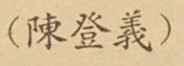（陳登義）
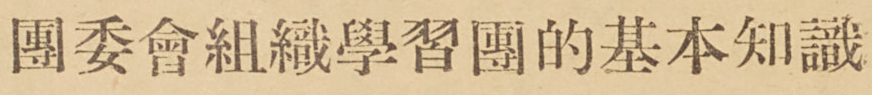團委會組織學習團的基本知識
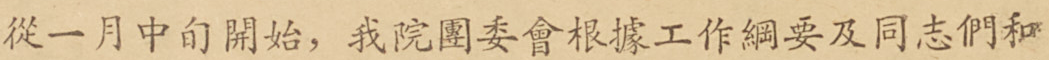從一月中旬開始，我院團委會根據工作綱要及同志們和
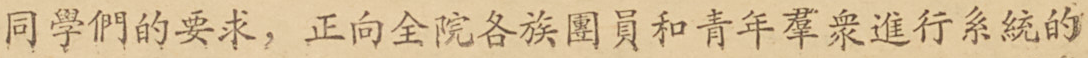同學們的要求，正向全院各族團員和青年羣衆進行系統的
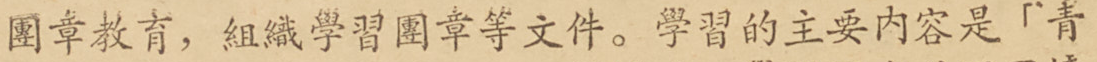團章教育，組織學習團章等文件。學習的主要內容是「青
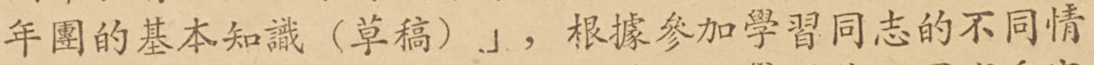年團的基本知識（草稿）」，根據參加學習同志的不同情
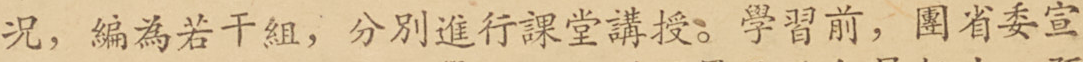況，編為若干組，分別進行課堂講授。學習前，團省委宣
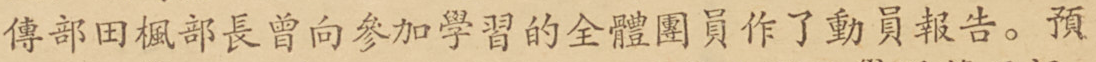傳部田楓部長曾向參加學習的全體團員作了動員報告。預
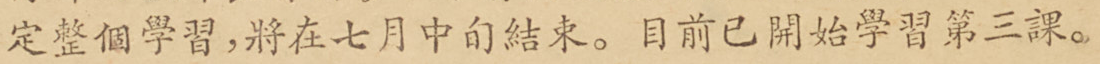定整個學習，將在七月中旬結束。目前已開始學習第三課。
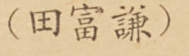（田富謙）
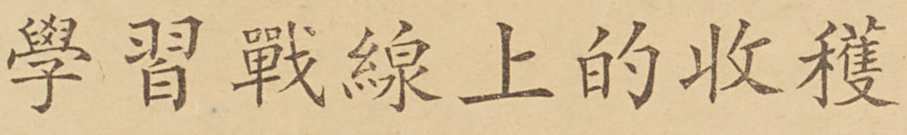學習戰線上的收穫
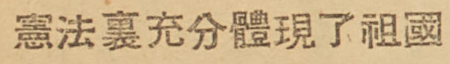憲法裏充分體現了祖國
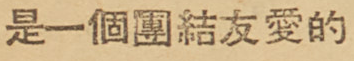是一個團結友愛的
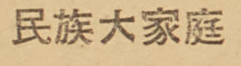民族大家庭
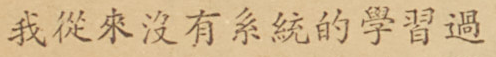我從來沒有系統 學習過
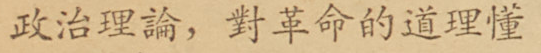政治理論，對革命的道理懂
